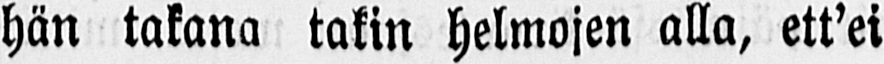hän takana takin helmojen alla, ett'ei
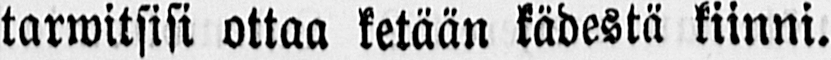tarwitsisi ottaa ketään kädestä kiinni.
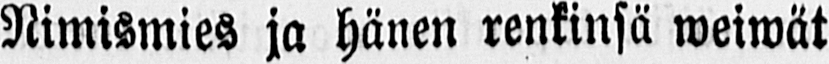Nimismies ja hänen renkinsä weiwät
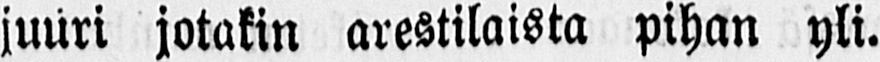juuri jotakin arestilaista pihan yli.
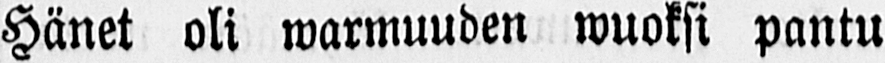Hänet oli warmuuden wuoksi pantu
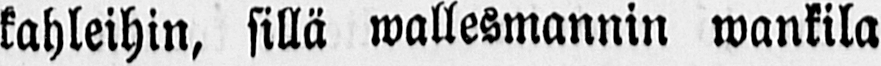kahleihin, sillä wallesmannin wankila
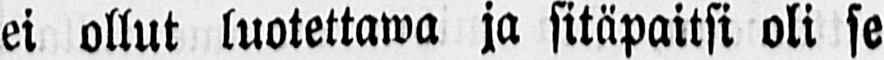ei ollut luotettawa ja sitäpaitsi oli se
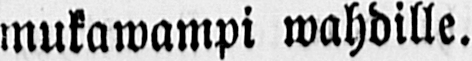mukawampi wahdille.
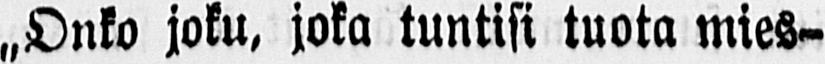„Onko joku, joka tuntisi tuota mies-
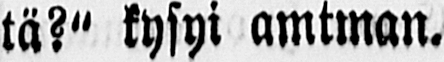tä?" kysyi amtman.
